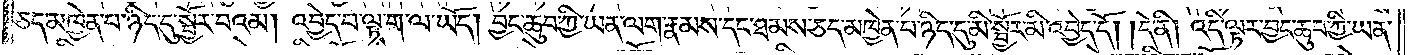ཅད་མཁྱེན་པ་ཉིད་དུ་སྦྱོར་བའམ། འབྱེད་པ་ལྟ་ག་ལ་ཡོད། བྱང་ཆུབ་ཀྱི་ཡན་ལག་རྣམས་དང་ཐམས་ཅད་མཁྱེན་པ་ཉིད་དུ་མི་སྦྱོར་མི་འབྱེད་དོ། །དེ་ནི། འདི་ལྟར་བྱང་ཆུབ་ཀྱི་ཡན་
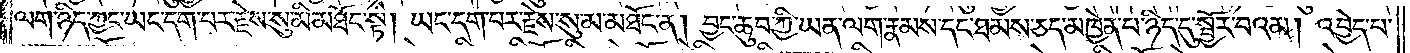ལག་ཉིད་ཀྱང་ཡང་དག་པར་རྗེས་སུ་མི་མཐོང་སྟེ། ཡང་དག་པར་རྗེས་སུ་མ་མཐོང་ན། བྱང་ཆུབ་ཀྱི་ཡན་ལག་རྣམས་དང་ཐམས་ཅད་མཁྱེན་པ་ཉིད་དུ་སྦྱོར་བའམ། འབྱེད་པ་
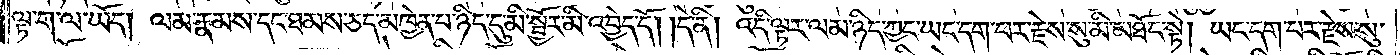ལྟ་ག་ལ་ཡོད། ལམ་རྣམས་དང་ཐམས་ཅད་མཁྱེན་པ་ཉིད་དུ་མི་སྦྱོར་མི་འབྱེད་དོ། །དེ་ནི། འདི་ལྟར་ལམ་ཉིད་ཀྱང་ཡང་དག་པར་རྗེས་སུ་མི་མཐོང་སྟེ། ཡང་དག་པར་རྗེས་སུ་
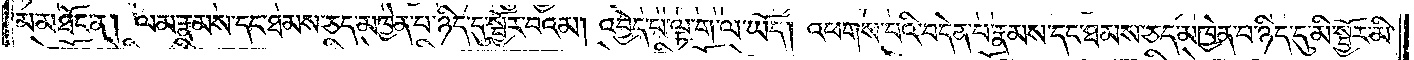མ་མཐོང་ན། ལམ་རྣམས་དང་ཐམས་ཅད་མཁྱེན་པ་ཉིད་དུ་སྦྱོར་བའམ། འབྱེད་པ་ལྟ་ག་ལ་ཡོད། འཕགས་པའི་བདེན་པ་རྣམས་དང་ཐམས་ཅད་མཁྱེན་པ་ཉིད་དུ་མི་སྦྱོར་མི་
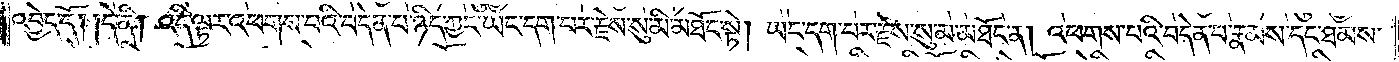འབྱེད་དོ། །དེ་ནི། འདི་ལྟར་འཕགས་པའི་བདེན་པ་ཉིད་ཀྱང་ཡང་དག་པར་རྗེས་སུ་མི་མཐོང་སྟེ། ཡང་དག་པར་རྗེས་སུ་མ་མཐོང་ན། འཕགས་པའི་བདེན་པ་རྣམས་དང་ཐམས་
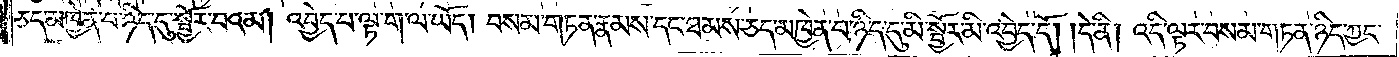ཅད་མཁྱེན་པ་ཉིད་དུ་སྦྱོར་བའམ། འབྱེད་པ་ལྟ་ག་ལ་ཡོད། བསམ་གཏན་རྣམས་དང་ཐམས་ཅད་མཁྱེན་པ་ཉིད་དུ་མི་སྦྱོར་མི་འབྱེད་དོ། །དེ་ནི། འདི་ལྟར་བསམ་གཏན་ཉིད་ཀྱང་
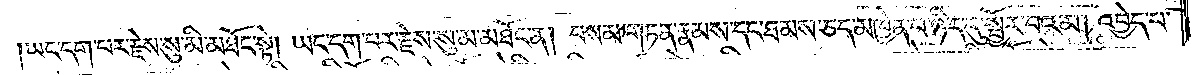ཡང་དག་པར་རྗེས་སུ་མི་མཐོང་སྟེ། ཡང་དག་པར་རྗེས་སུ་མ་མཐོང་ན། བསམ་གཏན་རྣམས་དང་ཐམས་ཅད་མཁྱེན་པ་ཉིད་དུ་སྦྱོར་བའམ། འབྱེད་པ་
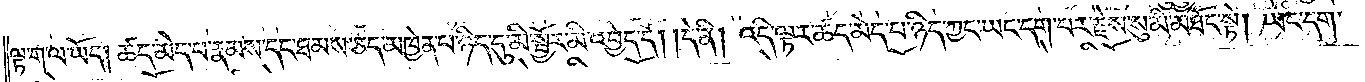ལྟ་ག་ལ་ཡོད། ཚད་མེད་པ་རྣམས་དང་ཐམས་ཅད་མཁྱེན་པ་ཉིད་དུ་མི་སྦྱོར་མི་འབྱེད་དོ། །དེ་ནི། འདི་ལྟར་ཚད་མེད་པ་ཉིད་ཀྱང་ཡང་དག་པར་རྗེས་སུ་མི་མཐོང་སྟེ། ཡང་དག་
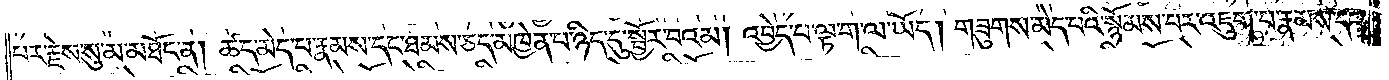པར་རྗེས་སུ་མ་མཐོང་ན། ཚད་མེད་པ་རྣམས་དང་ཐམས་ཅད་མཁྱེན་པ་ཉིད་དུ་སྦྱོར་བའམ། འབྱེད་པ་ལྟ་ག་ལ་ཡོད། གཟུགས་མེད་པའི་སྙོམས་པར་འཇུག་པ་རྣམས་དང་
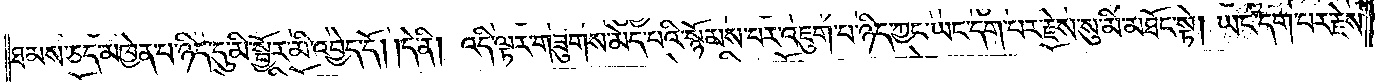ཐམས་ཅད་མཁྱེན་པ་ཉིད་དུ་མི་སྦྱོར་མི་འབྱེད་དོ། །དེ་ནི། འདི་ལྟར་གཟུགས་མེད་པའི་སྙོམས་པར་འཇུག་པ་ཉིད་ཀྱང་ཡང་དག་པར་རྗེས་སུ་མི་མཐོང་སྟེ། ཡང་དག་པར་རྗེས་
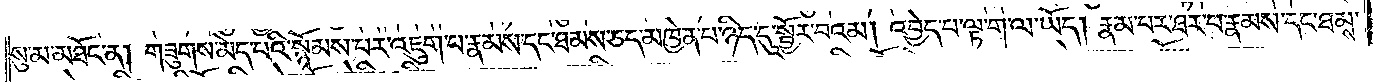སུ་མ་མཐོང་ན། གཟུགས་མེད་པའི་སྙོམས་པར་འཇུག་པ་རྣམས་དང་ཐམས་ཅད་མཁྱེན་པ་ཉིད་དུ་སྦྱོར་བའམ། འབྱེད་པ་ལྟ་ག་ལ་ཡོད། རྣམ་པར་ཐར་པ་རྣམས་དང་ཐམས་
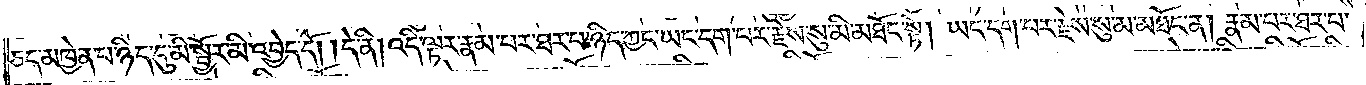ཅད་མཁྱེན་པ་ཉིད་དུ་མི་སྦྱོར་མི་འབྱེད་དོ། །དེ་ནི། འདི་ལྟར་རྣམ་པར་ཐར་པ་ཉིད་ཀྱང་ཡང་དག་པར་རྗེས་སུ་མི་མཐོང་སྟེ། ཡང་དག་པར་རྗེས་སུ་མ་མཐོང་ན། རྣམ་པར་ཐར་པ་
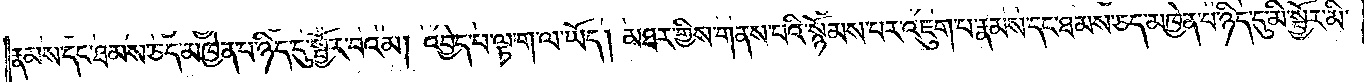རྣམས་དང་ཐམས་ཅད་མཁྱེན་པ་ཉིད་དུ་སྦྱོར་བའམ། འབྱེད་བ་ལྟ་ག་ལ་ཡོད། མཐར་གྱིས་གནས་པའི་སྙོམས་པར་འཇུག་པ་རྣམས་དང་ཐམས་ཅད་མཁྱེན་པ་ཉིད་དུ་མི་སྦྱོར་མི་
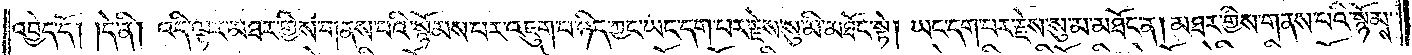འབྱེད་དོ། །དེ་ནི། འདི་ལྟར་མཐར་གྱིས་གནས་པའི་སྙོམས་པར་འཇུག་པ་ཉིད་ཀྱང་ཡང་དག་པར་རྗེས་སུ་མི་མཐོང་སྟེ། ཡང་དག་པར་རྗེས་སུ་མ་མཐོང་ན། མཐར་གྱིས་གནས་པའི་སྙོམས་
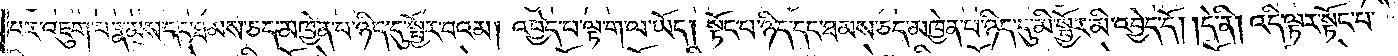པར་འཇུག་པ་རྣམས་དང་ཐམས་ཅད་མཁྱེན་པ་ཉིད་དུ་སྦྱོར་བའམ། འབྱེད་པ་ལྟ་ག་ལ་ཡོད། སྟོང་པ་ཉིད་དང་ཐམས་ཅད་མཁྱེན་པ་ཉིད་དུ་མི་སྦྱོར་མི་འབྱེད་དོ། །དེ་ནི། འདི་ལྟར་སྟོང་པ་
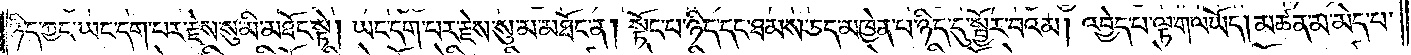ཉིད་ཀྱང་ཡང་དག་པར་རྗེས་སུ་མི་མཐོང་སྟེ། ཡང་དག་པར་རྗེས་སུ་མ་མཐོང་ན། སྟོང་པ་ཉིད་དང་ཐམས་ཅད་མཁྱེན་པ་ཉིད་དུ་སྦྱོར་བའམ། འབྱེད་པ་ལྟ་ག་ལ་ཡོད། མཚན་མ་མེད་པ་
